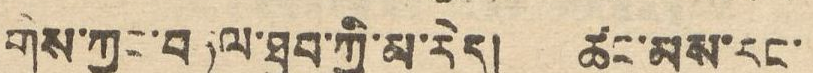གིས་ཀྱང་བཏུལ་ཐུབ་ཀྱི་མ་རེད། ཚང་མས་རང་
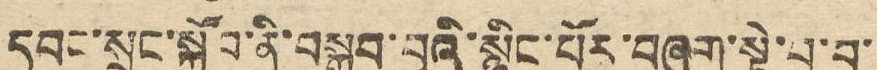དབང་སྲུང་སྐྱོབ་ནི་བསྒྲུབ་བྱའི་སྙིང་པོར་བཞག་སྟེ་བྱ་བ་
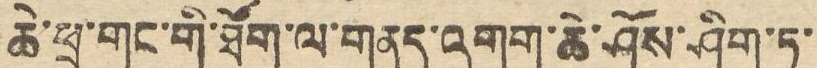ཆེ་ཕྲ་གང་གི་ཐོག་ལ་གནད་འགག་ཆེ་ཤོས་ཤིག་ཏུ་
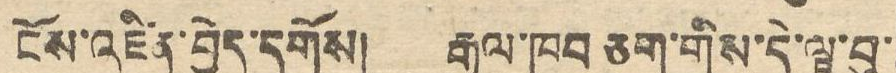ངོས་འཛིན་བྱེད་དགོས། རྒྱལ་ཁབ ཅག་གིས་དེ་ལྟ་བུ་
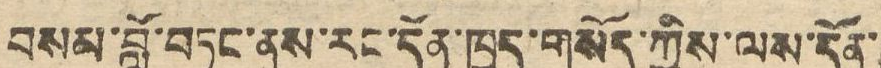བསམ་བློ་བཏང་ནས་རང་དོན་ཁྱད་གསོད་ཀྱིས་ལས་དོན་
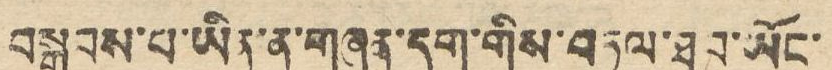བསྒྲུབས་པ་ཡིན་ན་གཞན་དག་གིས་བཏུལ་ཐུབ་ཡོང་
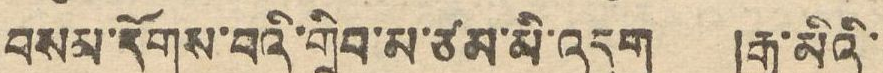བསམ་རོགས་བའི་གྲིབ་མ་ཙམ་མི་འདུག །རྒྱ་མིའི་
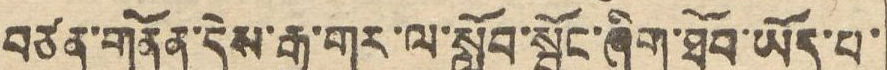བཙན་གནོན་དེས་རྒྱ་གར་ལ་སློབ་སྦྱོང་ཞིག་ཐོབ་ཡོད་པ་
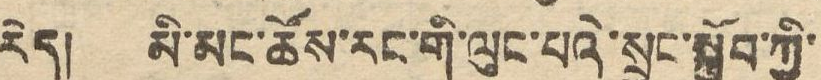རེད། མི་མང་ཚོས་རང་གི་ལུང་པའི་སྲུང་སྐྱོབ་ཀྱི་
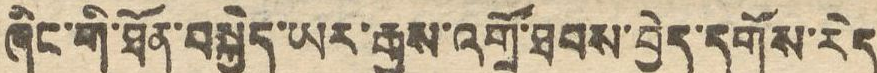ཞིང་གི་ཐོན་བསྐྱེད་ཡར་རྒྱས་འགྲོ་ཐབས་བྱེད་དགོས་རེད
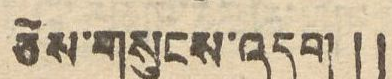ཅེས་གསུངས་འདུག།།
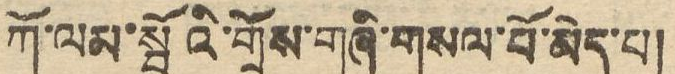ཀོ་ལམ་སྦོའི་གྲོས་གཞི་གསལ་པོ་མེད་པ།
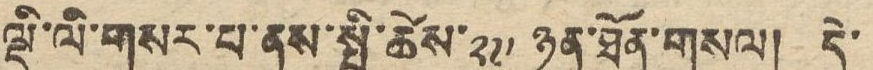ལྡི་ལི་གསར་པ་ནས་སྤྱི་ཚེས་༢༧ ཉིན་ཐོན་གསལ། དེ་
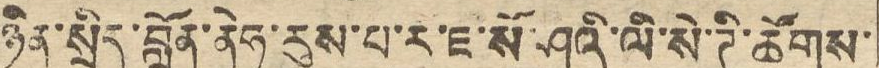ཉིན་སྲིད་བློན་ནེཧ་རུས་པ་ར་ཇ་སོ་ཤའི་ལི་སེ་ཌི་ཚོགས་
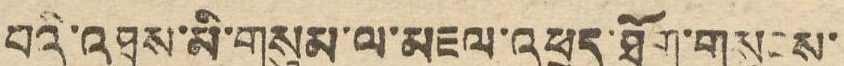བའི་འཐུས་མི་གསུམ་ལ་མཇལ་འཕྲད་ཐོག་གསུངས་
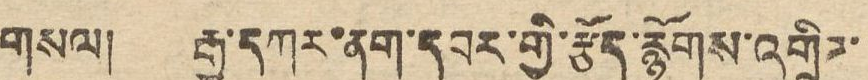གསལ། རྒྱ་དཀར་ནག་དབར་གྱི་རྩོད་རྙོགས་འགྲིཊ་
